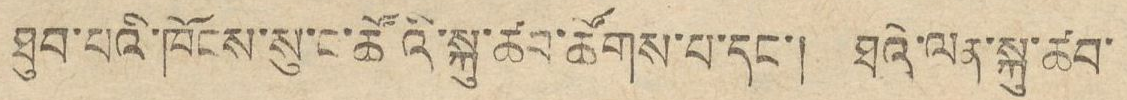ཐུབ་པའི་ཁོངས་སུ་ང་ཚོའི་སྐུ་ཚབ་ཚོགས་པ་དང་། ཐའི་ལན་སྐུ་ཚབ་
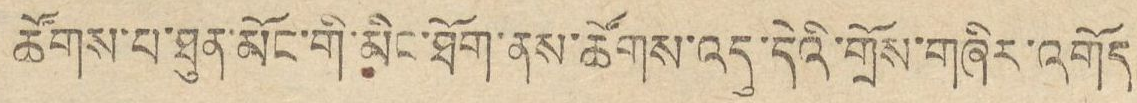ཚོགས་པ་ཐུན་མོང་གི་མིང་ཐོག་ནས་ཚོགས་འདུ་དེའི་གྲོས་གཞིར་འགོད
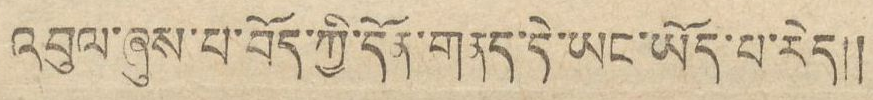འབུལ་ཞུས་པ་བོད་ཀྱི་དོན་གནད་དེ་ཡང་ཡོད་པ་རེད།།
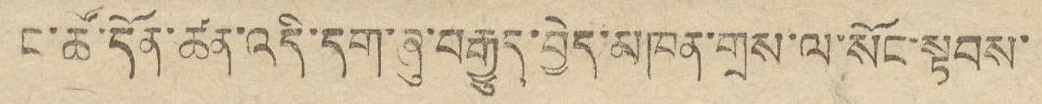ང་ཚོ་དོན་ཚན་འདི་དག་ཞུ་བརྒྱུད་བྱེད་མཁན་གྲས་ལ་སོང་སྟབས་
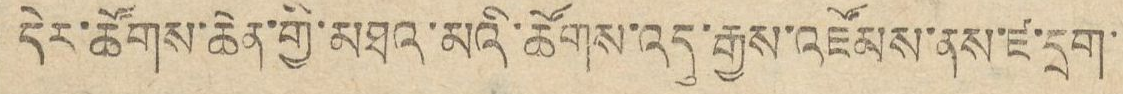དེར་ཚོགས་ཆེན་གྱི་མཐའ་མའི་ཚོགས་འདུ་རྒྱས་འཛོམས་ནས་ཛ་དྲག་
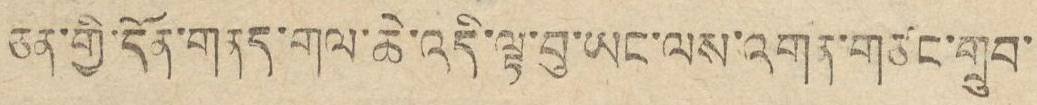ཅན་གྱི་དོན་གནད་གལ་ཆེ་འདི་ལྟ་བུ་ཡང་ལས་འགན་གཙང་གྲུབ་
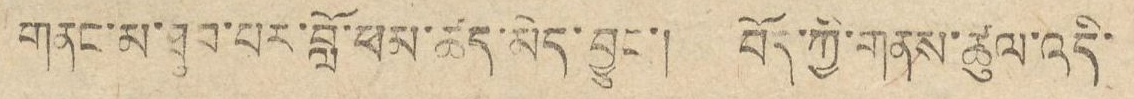གནང་མ་ཐུབ་པར་བློ་ཕམ་ཚད་མེད་བྱུང་། བོད་ཀྱི་གནས་ཚུལ་འདི་
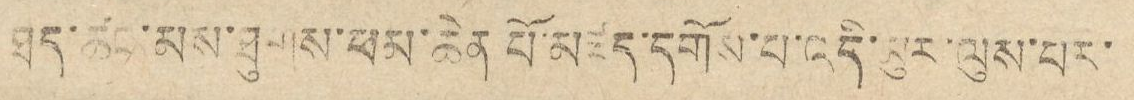ཐད་ཚབ་མས་ཐུགས་ཕམ་ཆེན པོ་མཛད་དགོས་པ་འདི་མུར་ལུས་པར་
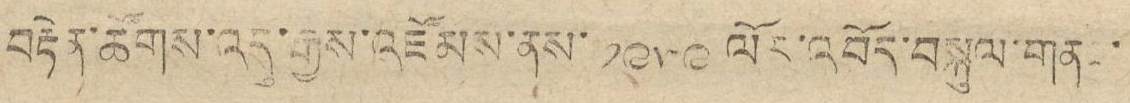བརྟེན་ཚོགས་འདུ་རྒྱས་འཛོམས་ནས་ ༡༩༥༩ ལོར་འབོད་བསྐུལ་གནང་
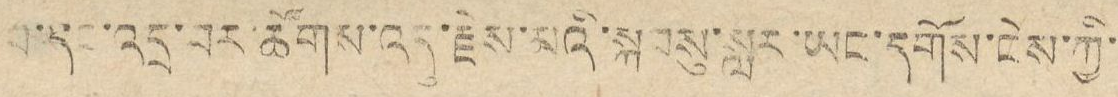པ་དང་འདྲ་བར་ཚོགས་འདུ་རྗེས་མའི་སྐབསུ་སླར་ཡང་དགོས་ངེས་ཀྱི་
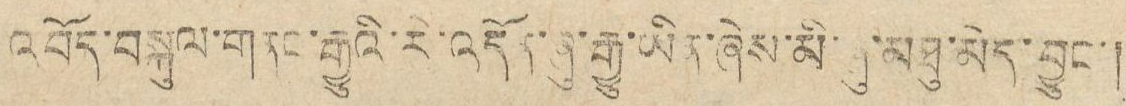འབོད་བསྐུལ་གནང་རྒྱུའི་རེ་འདོན་ཞུ་རྒྱུ་ཡིན་ཞེས་མི་ཞུ་མཐུ་མེད་བྱུང་།
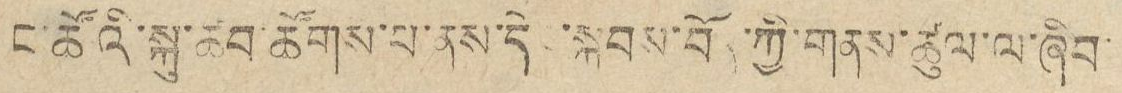ང་ཚོའི་སྐུ་ཚབ་ཚོགས་པ་ནས་དེང་སྐབས་བོད་ཀྱི་གནས་ཚུལ་ལ་ཞིབ་
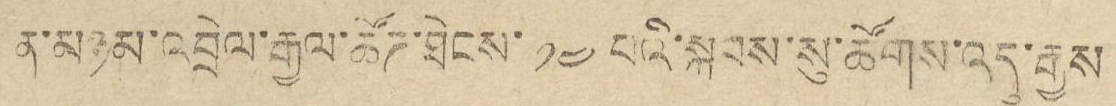ན་མཉམ་འབྲེལ་རྒྱལ་ཚོཌ་ཐེངས་ ༡༤ པའི་སྐབས་སུ་ཚོགས་འདུ་རྒྱས་
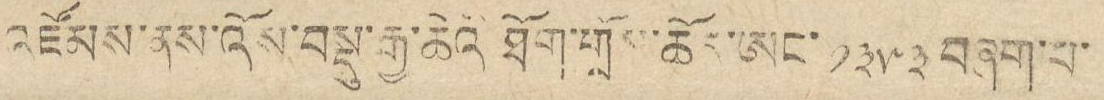འཛོམས་ནས་འོས་བསྡུ་རྒྱ་ཆེའི ཐོག་གྲོས་ཆོད་ཨང་ ༡༣༥༣ བཞག་པ་
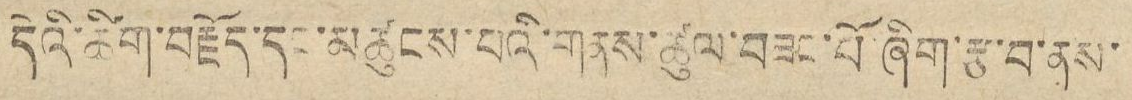དེའི་ཚིག་བརྗོད་དང་མཚུངས་པའི་གནས་ཚུལ་བཟང་པོ་ཞིག་རྩ་བ་ནས་
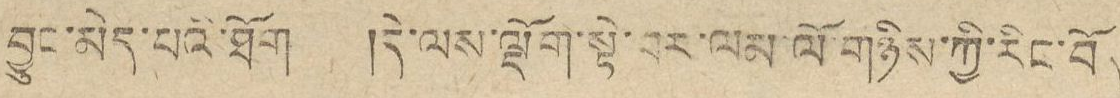བྱུང་མེད་པའི་ཐོག །དེ་ལས་ལྡོག་སྟེ་བར་ལམ་ལོ་གཉིས་ཀྱི་རིང་བོད་
